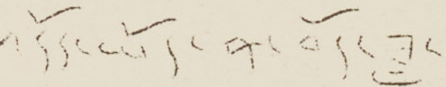འདོད་ཡོད་ན་བོ་ཟླ་
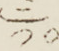༡༠
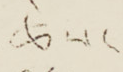ཚེས་
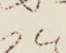༡༥
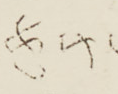ཚུན་
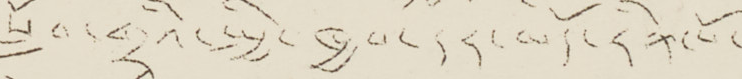སློབ་གྲྭའི་སྤྱི་ཁྱབ་དར་མདོ་རིན་པོ་
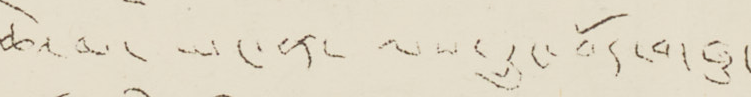ཆེའམ་ཡང་ན་ལས་དྲུང་བོད་གཞུང་
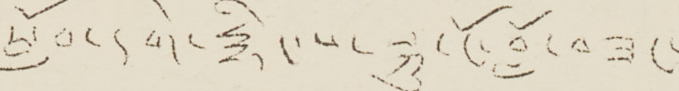སློབ་དགེ་རྙིང་པ་སྐུ་ངོ་བློ་བཟང་
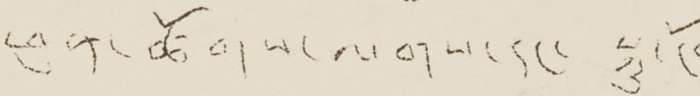ཕུན་ཚོགས་ལགས་དང་ སྐུ་ངོ་
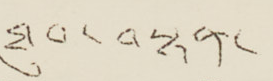ཐུབ་བསྟན་ ལགས་དང་
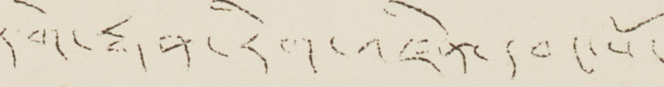དགེ་རྒན་རིགས་འཛིན་དབང་པོ་
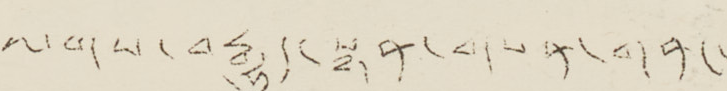ལགས་བརྒྱུད་སྙན་གསན་གནང་
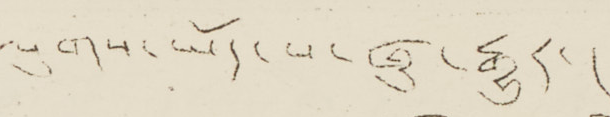ལུགས་ཡོད་པ་ཞུ་རྒྱུར།
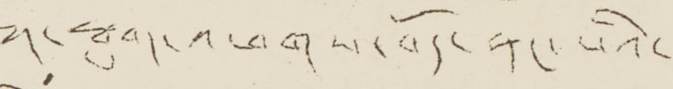ཀ་སྤུག་འཕགས་བོད་ནང་པའི་
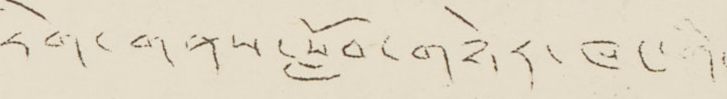རིག་གནས་སློབ་གཉེར་ཁག་གི་
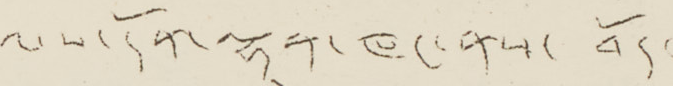ལས་དོན་ལྷན་ཁང་ནས་བོད་
